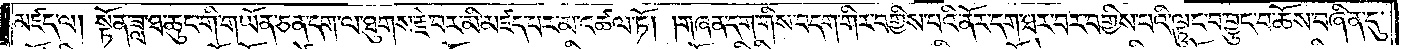མཛད་ལ། སྟོན་ཟླ་ཐ་ཆུང་གི་གཡོན་ཅན་དག་ལ་ཐུགས་རྗེ་བར་མི་མཛད་པར་མ་འཚལ་ཏོ། །གཞན་དག་གིས་བདག་གིར་བགྱིས་པའི་ནོར་དག་ཐར་བར་བགྱིས་པའི་ལྟུང་བ་བྱུང་བ་ཆོས་བཞིན་དུ་
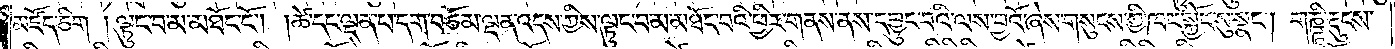མཛོད་ཅིག། ལྟུང་བ་མ་མཐོང་ངོ༌། །ཚེ་དང་ལྡན་པ་དག་བཅོམ་ལྡན་འདས་ཀྱིས་ལྟུང་བ་མ་མཐོང་བའི་ཕྱིར་གནས་ནས་དབྱུང་བའི་ལས་བྱའོ་ཞེས་གསུངས་ཀྱི་ཁང་སྐྱོང་སུ་སྣང༌། གཎྜཱི་རྡུངས་
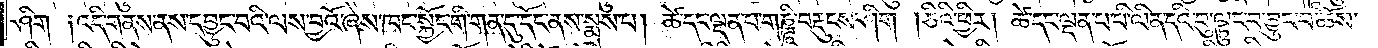ཤིག  ༑འདི་གནས་ནས་དབྱུང་བའི་ལས་བྱའོ་ཞེས་ཁང་སྐྱོང་གི་གན་དུ་དོང་ནས་སྨྲས་པ། ཚེ་དང་ལྡན་པ་གཎྜཱི་བརྡུངས་ཤིག །ཅིའི་ཕྱིར། ཚེ་དང་ལྡན་པ་པི་ལིན་དའི་བུ་ལྟུང་བ་བྱུང་བ་ཆོས་
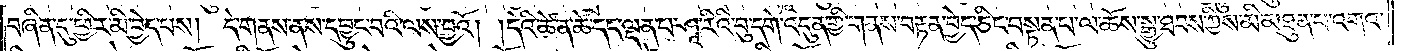བཞིན་དུ་ཕྱིར་མི་བྱེད་པས། དེ་གནས་ནས་དབྱུང་བའི་ལས་བྱའོ། །དེའི་ཚེ་ན་ཚེ་དང་ལྡན་པ་ཤཱ་རིའི་བུ་དགེ་འདུན་གྱི་གནས་བརྟན་བྱེད་ཅིང་བསྟན་པ་ལ་ཆོས་སྒྱུ་ཐབས་ཀྱིས་མི་མཐུན་པ་འགའ་
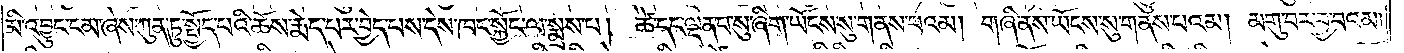མི་འབྱུང་ངམ་ཞེས་ཀུན་ཏུ་སྤྱོད་པའི་ཆོས་རྨེད་པར་བྱེད་པས་དེས་ཁང་སྐྱོང་ལ་སྨྲས་པ། ཚེ་དང་ལྡན་པ་སུ་ཞིག་ཡོངས་སུ་གནས་པའམ། གཞི་ནས་ཡོངས་སུ་གནས་པའམ། མགུ་བར་བྱ་བའམ།
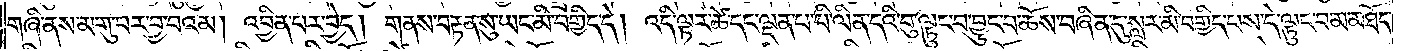གཞི་ནས་མགུ་བར་བྱ་བའམ། འབྱིན་པར་བྱེད། གནས་བརྟན་སུ་ཡང་མི་བགྱིད་དེ། འདི་ལྟར་ཚེ་དང་ལྡན་པ་པི་ལིན་དའི་བུ་ལྟུང་བ་བྱུང་བ་ཆོས་བཞིན་དུ་སླར་མི་བགྱིད་པས་དེ་ལྟུང་བ་མ་མཐོང་
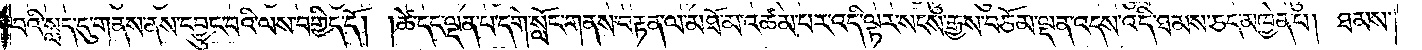བའི་སླད་དུ་གནས་ནས་དབྱུང་བའི་ལས་བགྱིད་དོ། །ཚེ་དང་ལྡན་པ་དགེ་སློང་གནས་བརྟན་ལ་མཐོ་མ་འཚམ་པར་འདི་ལྟར་སངས་རྒྱས་བཅོམ་ལྡན་འདས་འདི་ཐམས་ཅད་མཁྱེན་པ། ཐམས་
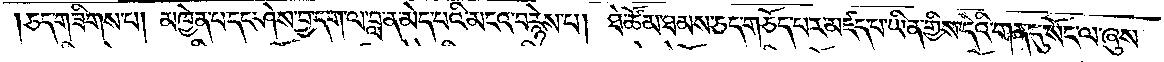ཅད་གཟིགས་པ། མཁྱེན་པ་དང་ཤེས་བྱ་དག་ལ་བླ་ན་མེད་པའི་མངའ་བརྙེས་པ། ཐེ་ཚོམ་ཐམས་ཅད་གཅོད་པར་མཛད་པ་ཡིན་གྱིས་དེའི་གན་དུ་སོང་ལ་ཞུས་
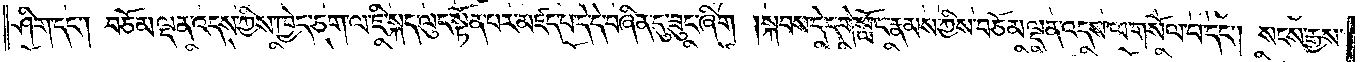ཤིག་དང༌། བཅོམ་ལྡན་འདས་ཀྱིས་ཁྱེད་ཅག་ལ་ཇི་སྐད་ལུང་སྟོན་པར་མཛད་པ་དེ་དེ་བཞིན་དུ་ཟུང་ཞིག །སྐབས་དེ་དགེ་སློང་རྣམས་ཀྱིས་བཅོམ་ལྡན་འདས་ཕ་གསོལ་པ་དང༌། སངས་རྒྱས་
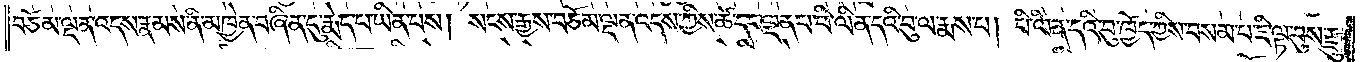བཅོམ་ལྡན་འདས་རྣམས་ནི་མཁྱེན་བཞིན་དུ་རྨེད་པ་ཡིན་པས། སངས་རྒྱས་བཅོམ་ལྡན་འདས་ཀྱིས་ཚེ་དང་ལྡན་པ་པི་ལིན་དའི་བུ་ལ་རྨས་པ། པི་ལིན་དའི་བུ་ཁྱོད་ཀྱིས་བསམ་པ་ཇི་ལྟ་བུས་རྫུ་
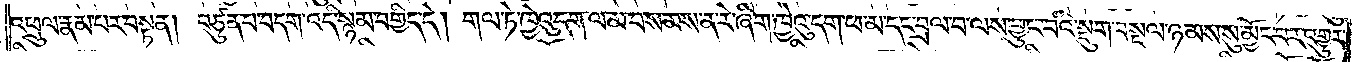འཕྲུལ་རྣམ་པར་བསྟན། བཙུན་པ་བདག་འདི་སྙམ་བགྱིད་དེ། གལ་ཏེ་ཁྱེའུ་དག་ལ་མ་བསམས་ན་རེ་ཞིག་ཁྱེའུ་དག་ཕ་མ་དང་བྲལ་བ་ལས་བྱུང་བའི་སྡུག་བསྔལ་ཉམས་སུ་མྱོང་བར་འགྱུར་
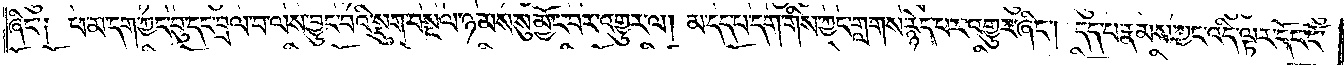ཞིང་༑ ཕ་མ་དག་ཀྱང་བུ་དང་བྲལ་བ་ལས་བྱུང་བའི་སྡུག་བསྔལ་ཉམས་སུ་མྱོང་བར་འགྱུར་ལ། མ་དད་པ་དག་གིས་ཀྱང་གླགས་རྙེད་པར་འགྱུར་ཞིང༌། དད་པ་རྣམས་ཀྱང་འདི་ལྟར་དོང་ངོ་
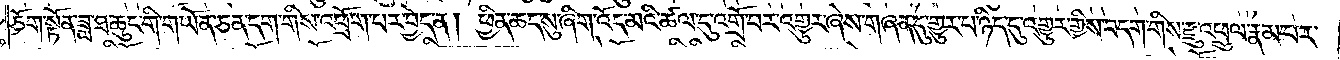ཅོག་སྟོན་ཟླ་ཐ་ཆུང་གི་གཡོན་ཅན་དག་གིས་འཕྲོག་པར་བྱེད་ན། ཕྱིན་ཆད་སུ་ཞིག་འོད་མའི་ཚལ་དུ་འགྲོ་བར་འགྱུར་ཞེས་གཞན་དུ་གྱུར་པ་ཉིད་དུ་འགྱུར་གྱིས་བདག་གིས་རྫུ་འཕྲུལ་རྣམ་པར་
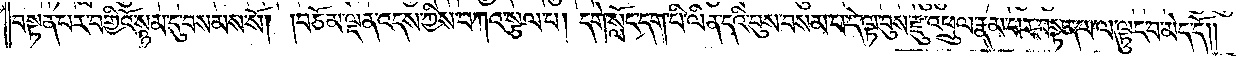བསྟན་པར་བགྱིའོ་སྙམ་དུ་བསམས་སོ། །བཅོམ་ལྡན་འདས་ཀྱིས་བཀའ་སྩལ་པ། དགེ་སློང་དག་པི་ལིན་དའི་བུས་བསམ་པ་དེ་ལྟ་བུས་རྫུ་འཕྲུལ་རྣམ་པར་བསྟན་པ་ལ་ལྟུང་བ་མེད་དོ༎
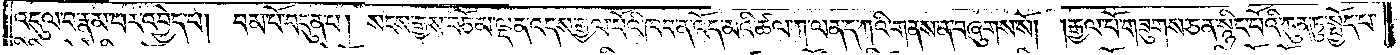འདུལ་བ་རྣམ་པར་འབྱེད་པ། བམ་པོ་བདུན་པ། སངས་རྒྱས་བཅོམ་ལྡན་འདས་རྒྱལ་པོའི་ཁབ་ན་འོད་མའི་ཚལ་ཀ་ལན་ད་ཀའི་གནས་ན་བཞུགས་སོ། །རྒྱལ་པོ་གཟུགས་ཅན་སྙིང་པོའི་ཀུན་ཏུ་སྤྱོད་པ་
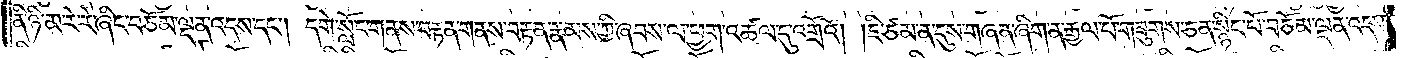ནི་ཉི་མ་རེ་རེ་ཞིང་བཅོམ་ལྡན་འདས་དང༌། དགེ་སློང་གནས་བརྟན་གནས་བརྟན་རྣམས་ཀྱི་ཞབས་ལ་ཕྱག་འཚལ་དུ་འགྲོའོ། །ཇི་ཙམ་ན་དུས་གཞན་ཞིག་ན་རྒྱལ་པོ་གཟུགས་ཅན་སྙིང་པོ་བཅོམ་ལྡན་འདས་
